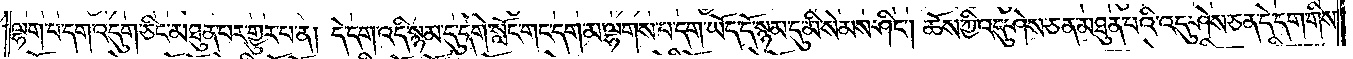ལྷག་པ་དག་འདུག་ཅིང་མཐུན་པར་གྱུར་པ་ན། དེ་དག་འདི་སྙམ་དུ་དགེ་སློང་གང་དག་མ་ལྷགས་པ་དག་ཡོད་དོ་སྙམ་དུ་མི་སེམས་ཤིང༌། ཆོས་ཀྱི་འདུ་ཤེས་ཅན་མཐུན་པའི་འདུ་ཤེས་ཅན་དེ་དག་གིས་
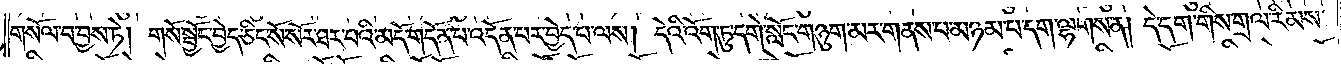གསོལ་བ་བྱས་ཏེ། གསོ་སྦྱོང་བྱེད་ཅིང་སོ་སོར་ཐར་བའི་མདོ་གདོན་པ་འདོན་པར་བྱེད་པ་ལས། དེའི་འོག་ཏུ་དགེ་སློང་གཉུག་མར་གནས་པ་མཉམ་པ་དག་ལྷགས་ན། དེ་དག་གིས་གྲལ་རིམས་
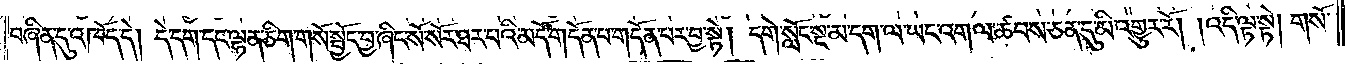བཞིན་དུ་འཁོད་དེ། དེ་དག་དང་ལྷན་ཅིག་གསོ་སྦྱོང་བྱ་ཞིང་སོ་སོར་ཐར་པའི་མདོ་གདོན་པ་གདོན་པར་བྱ་སྟེ། དགེ་སློང་སྔ་མ་དག་ལ་ཡང་འགལ་ཚབས་ཅན་དུ་མི་འགྱུར་རོ། །འདི་ལྟ་སྟེ། གསོ་
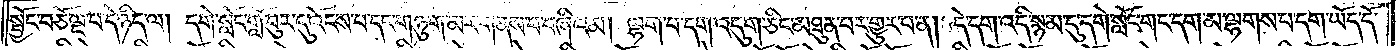སྦྱོང་བཅོ་ལྔ་པ་དེ་ཉིད་ལ། དགེ་སློང་གློ་བུར་དུ་འོངས་པ་དང་གཉུག་མར་གནས་པ་བཞིའམ། ལྷག་པ་དག་འདུག་ཅིང་མཐུན་པར་གྱུར་པ་ན། དེ་དག་འདི་སྙམ་དུ་དགེ་སློང་གང་དག་མ་ལྷགས་པ་དག་ཡོད་དོ་
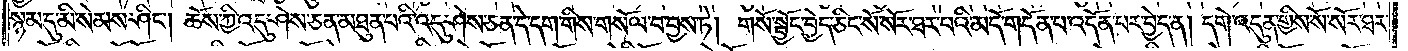སྙམ་དུ་མི་སེམས་ཤིང༌། ཆོས་ཀྱི་འདུ་ཤེས་ཅན་མཐུན་པའི་འདུ་ཤེས་ཅན་དེ་དག་གིས་གསོལ་བ་བྱས་ཏེ། གསོ་སྦྱོང་བྱེད་ཅིང་སོ་སོར་ཐར་བའི་མདོ་གདོན་པ་འདོན་པར་བྱེད་ན། དགེ་འདུན་གྱིས་སོ་སོར་ཐར་
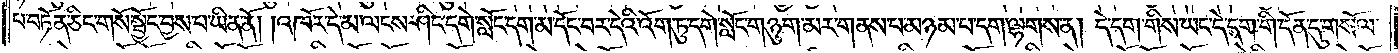པ་བཏོན་ཅིང་གསོ་སྦྱོང་བྱས་པ་ཡིན་ནོ། །འཁོར་དེ་མ་ལངས་ཤིང་དགེ་སློང་དག་མ་དོང་བར་དེའི་འོག་ཏུ་དགེ་སློང་གཉུག་མར་གནས་པ་མཉམ་པ་དག་ལྷགས་ན། དེ་དག་གིས་ཡང་དེ་དག་གི་དོན་དུ་གསོལ་
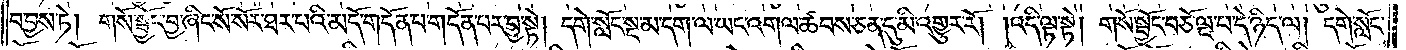བ་བྱས་ཏེ། གསོ་སྦྱོང་བྱ་ཞིང་སོ་སོར་ཐར་པའི་མདོ་གདོན་པ་གདོན་པར་བྱ་སྟེ། དགེ་སློང་སྔ་མ་དག་ལ་ཡང་འགལ་ཚབས་ཅན་དུ་མི་འགྱུར་རོ། །འདི་ལྟ་སྟེ། གསོ་སྦྱོང་བཅོ་ལྔ་པ་དེ་ཉིད་ལ། དགེ་སློང་
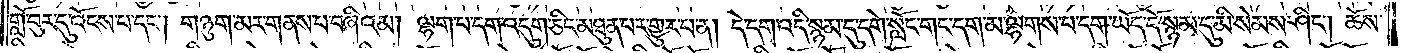གློ་བུར་དུ་འོངས་པ་དང༌། གཉུག་མར་གནས་པ་བཞིའམ། ལྷག་པ་དག་འདུག་ཅིང་མཐུན་པར་གྱུར་པ་ན། དེ་དག་འདི་སྙམ་དུ་དགེ་སློང་གང་དག་མ་ལྷགས་པ་དག་ཡོད་དོ་སྙམ་དུ་མི་སེམས་ཤིང༌། ཆོས་
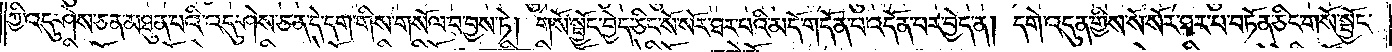ཀྱི་འདུ་ཤེས་ཅན་མཐུན་པའི་འདུ་ཤེས་ཅན་དེ་དག་གིས་གསོལ་བ་བྱས་ཏེ། གསོ་སྦྱོང་བྱེད་ཅིང་སོ་སོར་ཐར་བའི་མདོ་གདོན་པ་འདོན་པར་བྱེད་ན། དགེ་འདུན་གྱིས་སོ་སོར་ཐར་པ་བཏོན་ཅིང་གསོ་སྦྱོང་
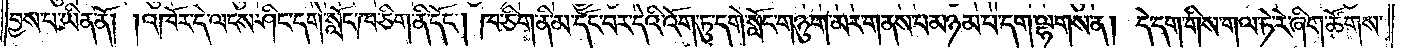བྱས་པ་ཡིན་ནོ། །འཁོར་དེ་ལངས་ཤིང་དགེ་སློང་ཁ་ཅིག་ནི་དོང༌། ཁ་ཅིག་ནི་མ་དོང་བར་དེའི་འོག་ཏུ་དགེ་སློང་གཉུག་མར་གནས་པ་མཉམ་པ་དག་ལྷགས་ན། དེ་དག་གིས་གལ་ཏེ་རེ་ཞིག་ཚོགས་
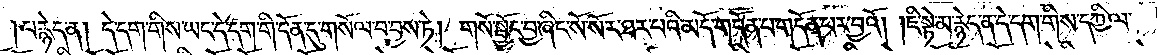།བརྙེད་ན། དེ་དག་གིས་ཡང་དེ་དག་གི་དོན་དུ་གསོལ་བ་བྱས་ཏེ། གསོ་སྦྱོང་བྱ་ཞིང་སོ་སོར་ཐར་པའི་མདོ་གདོན་པ་གདོན་པར་བྱའོ། །ཇི་སྟེ་མ་རྙེད་ན་དེ་དག་གིས་དཀྱིལ་
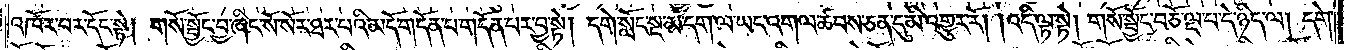འཁོར་བར་དོང་སྟེ། གསོ་སྦྱོང་བྱ་ཞིང་སོ་སོར་ཐར་པའི་མདོ་གདོན་པ་གདོན་པར་བྱ་སྟེ། དགེ་སློང་སྔ་མ་དག་ལ་ཡང་འགལ་ཚབས་ཅན་དུ་མི་འགྱུར་རོ། །འདི་ལྟ་སྟེ། གསོ་སྦྱོང་བཅོ་ལྔ་པ་དེ་ཉིད་ལ། དགེ་
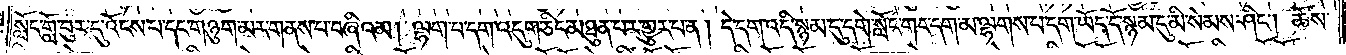སློང་གློ་བུར་དུ་འོངས་པ་དང་གཉུག་མར་གནས་པ་བཞིའམ། ལྷག་པ་དག་འདུག་ཅིང་མཐུན་པར་གྱུར་པ་ན། དེ་དག་འདི་སྙམ་དུ་དགེ་སློང་གང་དག་མ་ལྷགས་པ་དག་ཡོད་དོ་སྙམ་དུ་མི་སེམས་ཤིང༌། ཆོས་
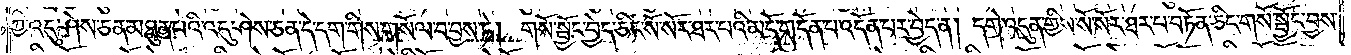ཀྱི་འདུ་ཤེས་ཅན་མཐུན་པའི་འདུ་ཤེས་ཅན་དེ་དག་གིས་གསོལ་བ་བྱས་ཏེ། གསོ་སྦྱོང་བྱེད་ཅིང་སོ་སོར་ཐར་པའི་མདོ་གདོན་པ་འདོན་པར་བྱེད་ན། དགེ་འདུན་གྱིས་སོ་སོར་ཐར་པ་བཏོན་ཅིང་གསོ་སྦྱོང་བྱས་
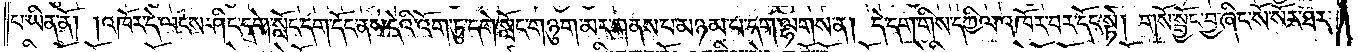པ་ཡིན་ནོ། །འཁོར་དེ་ལངས་ཤིང་དགེ་སློང་དག་དོང་ནས་དེའི་འོག་ཏུ་དགེ་སློང་གཉུག་མར་གནས་པ་མཉམ་པ་དག་ལྷགས་ན། དེ་དག་གིས་དཀྱིལ་འཁོར་བར་དོང་སྟེ། གསོ་སྦྱོང་བྱ་ཞིང་སོ་སོར་ཐར་
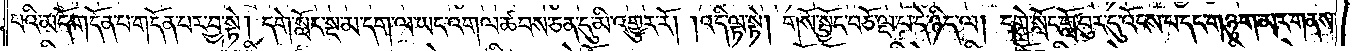པའི་མདོ་གདོན་པ་གདོན་པར་བྱ་སྟེ། དགེ་སློང་སྔ་མ་དག་ལ་ཡང་འགལ་ཚབས་ཅན་དུ་མི་འགྱུར་རོ། །འདི་ལྟ་སྟེ། གསོ་སྦྱོང་བཅོ་ལྔ་པ་དེ་ཉིད་ལ། དགེ་སློང་གློ་བུར་དུ་འོངས་པ་དང་གཉུག་མར་གནས་
